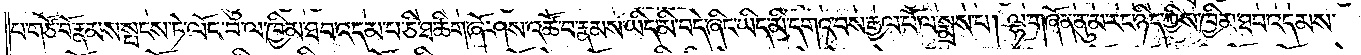པ་གཙོ་བོ་རྣམས་སྤངས་ཏེ་ལོང་བ་ལ་ཁྱིམ་ཐབ་འདམ་པ་ཅི་ཐ་ཚིག་ཞོ་ཤས་འཚོ་བ་རྣམས་ཡིད་མི་བདེ་ཞིང་མི་དགའ་བས་རྒྱལ་པོ་ལ་སྨྲས་པ། ལྷ་གཞོན་ནུ་མ་རང་ཉིད་ཀྱིས་ཁྱིམ་ཐབ་འདམས་
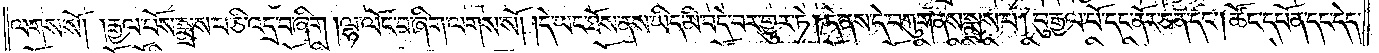ལགས་སོ། །རྒྱལ་པོས་སྨྲས་པ་ཅི་འདྲ་བ་ཞིག །ལྷ་ལོང་བ་ཞིག་ལགས་སོ། །དེ་ཡང་ཐོས་ནས་ཡིད་མི་བདེ་བར་གྱུར་ཏེ། དེ་ནས་དེ་བཀུག་ནས་སྨྲས་པ། བུ་རྒྱལ་པོ་དང་ནོར་ཅན་དང༌། ཚོང་དཔོན་དང་དེད་
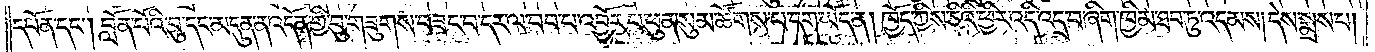དཔོན་དང༌། བློན་པོའི་བུ་དང་མདུན་ན་འདོན་གྱི་བུ་གཟུགས་བཟང་བ་དར་ལ་བབ་པ་འབྱོར་པ་ཕུན་སུམ་ཚོགས་པ་དག་ཡོད་ན། ཁྱོད་ཀྱིས་ཅིའི་ཕྱིར་འདི་འདྲ་བ་ཞིག་ཁྱིམ་ཐབ་ཏུ་འདམས། དེས་སྨྲས་པ།
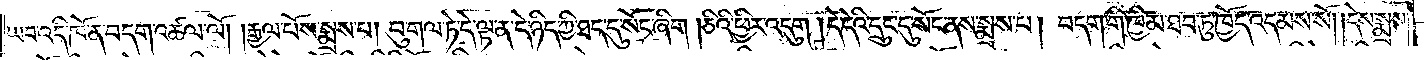ཡབ་འདི་ཁོ་ན་བདག་འཚལ་ལོ། །རྒྱལ་པོས་སྨྲས་པ། བུ་གལ་ཏེ་དེ་ལྟ་ན་དེ་ཉིད་ཀྱི་ཐད་དུ་སོང་ཞིག །ཅིའི་ཕྱིར་འདུག །དེ་དེའི་དྲུང་དུ་སོང་ནས་སྨྲས་པ། བདག་གི་ཁྱིམ་ཐབ་ཏུ་ཁྱོད་འདམས་སོ། །དེས་སྨྲས་
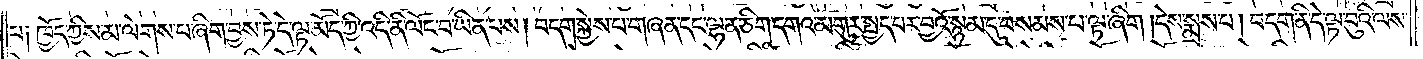པ༑ ཁྱོད་ཀྱིས་མ་ལེགས་པ་ཞིག་བྱས་ཏེ་དེ་ལྟ་མོད་ཀྱི་འདི་ནི་ལོང་བ་ཡིན་པས། བདག་སྐྱེས་པ་གཞན་དང་ལྷན་ཅིག་དགའ་མགུར་སྤྱད་པར་བྱའོ་སྙམ་དུ་བསམས་པ་ལྟ་ཞིག །དེས་སྨྲས་པ། བདག་ནི་དེ་ལྟ་བུའི་ལས་
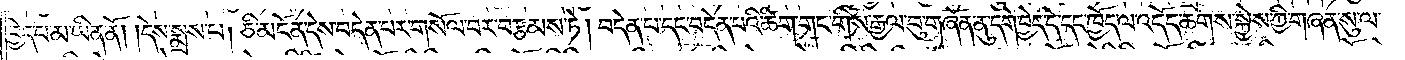བྱེད་པ་མ་ཡིན་ནོ། །དེས་སྨྲས་པ། ཅི་མངོན་དེས་བདེན་པ་གསོལ་བར་བརྩམས་ཏེ། བདེན་པ་དང་བདེན་པའི་ཚིག་གང་གིས་རྒྱལ་བུ་གཞོན་ནུ་དགེ་བྱེད་དེ་དང་ཁྱོད་ལ་འདོད་ཆགས་སྐྱེས་ཀྱི་གཞན་སུ་ལ་
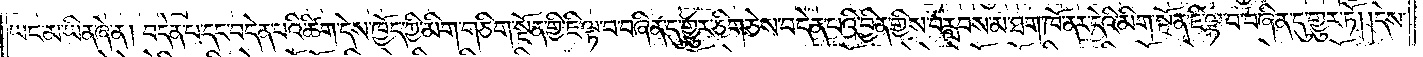ཡང་མ་ཡིན་ཞེ་ན། བདེན་པ་དང་བདེན་པའི་ཚིག་དེས་ཁྱོད་ཀྱི་མིག་གཅིག་སྔོན་གྱི་ཇི་ལྟ་བ་བཞིན་དུ་གྱུར་ཅིག་ཅེས་བདེན་པའི་བྱིན་གྱིས་བརླབས་མ་ཐག་ཁོ་ནར་དེའི་མིག་སྔོན་ཇི་ལྟ་བ་བཞིན་དུ་གྱུར་ཏོ། །དེས་
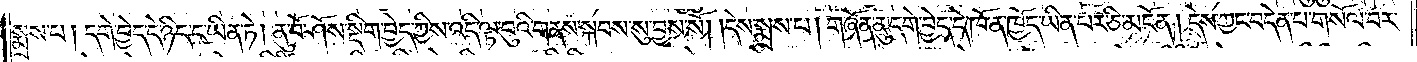སྨྲས་པ། དགེ་བྱེད་དེ་ཉིད་ང་ཡིན་ཏེ། ནུ་བོ་ཤོས་སྡིག་བྱེད་ཀྱིས་འདི་ལྟ་བུའི་གནས་སྐབས་སུ་བྱས་སོ། །དེས་སྨྲས་པ། གཞོན་ནུ་དགེ་བྱེད་དེ་ཁོ་ན་ཁྱོད་ཡིན་པར་ཅི་མངོན། དེས་ཀྱང་བདེན་པ་གསོལ་བར་
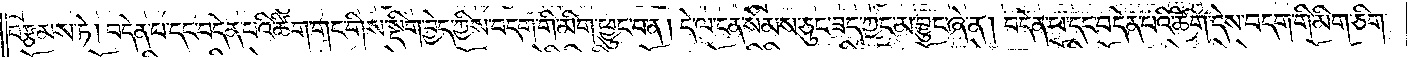བརྩམས་ཏེ། བདེན་པ་དང་བདེན་པའི་ཚིག་གང་གིས་སྡིག་བྱེད་ཀྱིས་བདག་གི་མིག་ཕྱུང་བ་ན། དེ་ལ་ངན་སེམས་ཅུང་ཟད་ཀྱང་མ་བྱུང་ཞེ་ན། བདེན་པ་དང་བདེན་པའི་ཚིག་དེས་བདག་གི་མིག་ཅིག་
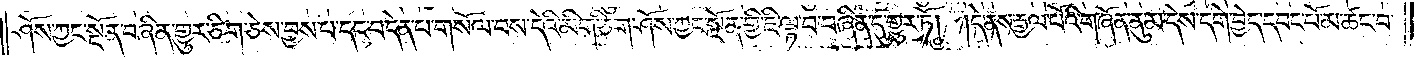ཤོས་ཀྱང་སྔོན་བཞིན་གྱུར་ཅིག་ཅེས་བྱས་པ་དང་བདེན་པ་གསོལ་བས་དེའི་མི་གཅིག་ཤོས་ཀྱང་སྔོན་གྱི་ཇི་ལྟ་བ་བཞིན་དུ་གྱུར་ཏོ། །དེ་ནས་རྒྱལ་པོའི་གཞོན་ནུ་མ་དེས་དགེ་བྱེད་དབང་པོ་མ་ཚང་བ་
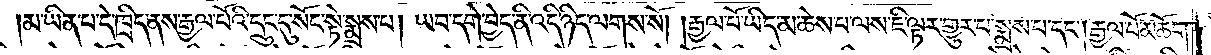མ་ཡིན་པ་དེ་ཁྲིད་ནས་རྒྱལ་པོའི་དྲུང་དུ་སོང་སྟེ་སྨྲས་པ། ཡབ་དགེ་བྱེད་ནི་འདི་ཉིད་ལགས་སོ། །རྒྱལ་པོ་ཡིད་མ་ཆེས་པ་ལས་ཇི་ལྟར་གྱུར་པ་སྨྲས་པ་དང༌། རྒྱལ་པོ་མཆོག་
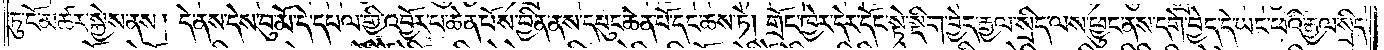ཏུ་ངོ་མཚར་སྐྱེས་ནས། དེ་ནས་དེས་བུ་མོ་དེ་དཔལ་གྱི་འབྱོར་པ་ཆེན་པོས་བྱིན་ནས་དཔུང་ཆེན་པོ་དང་ཆས་ཏེ། གྲོང་ཁྱེར་དེར་དོང་སྟེ་སྡིག་བྱེད་རྒྱལ་སྲིད་ལས་ཕྱུང་ནས་དགེ་བྱེད་དེ་ཡང་ཕའི་རྒྱལ་སྲིད་
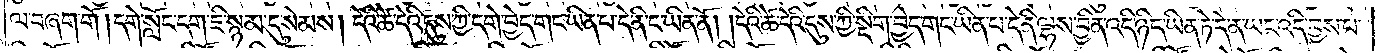ལ་བཞག་གོ །དགེ་སློང་དག་ཇི་སྙམ་དུ་སེམས། དེའི་ཚེ་དེའི་དུས་ཀྱི་དགེ་བྱེད་གང་ཡིན་པ་དེ་ནི་ང་ཡིན་ནོ། །དེའི་ཚེ་དེའི་དུས་ཀྱི་སྡིག་བྱེད་གང་ཡིན་པ་དེ་ནི་ལྷས་བྱིན་འདི་ཉིད་ཡིན་ཏེ་དེ་ན་ཡང་འདི་བྱས་པ་
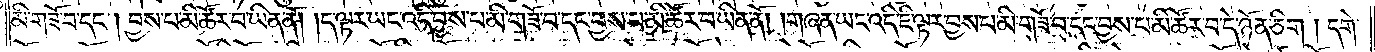མི་གཟོ་བ་དང༌། བྱས་པ་མི་ཚོར་བ་ཡིན་ནོ། །ད་ལྟར་ཡང་འདི་བྱས་པ་མི་གཟོ་བ་དང་བྱས་པ་མི་ཚོར་བ་ཡིན་ནོ། །གཞན་ཡང་འདི་ཇི་ལྟར་བྱས་པ་མི་གཟོ་བ་དང་བྱས་པ་མི་ཚོར་བ་དེ་ཉོན་ཅིག །དགེ་
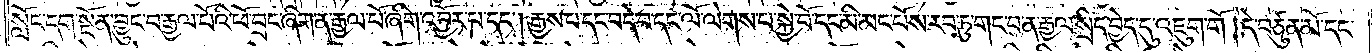སློང་དག་སྔོན་བྱུང་བ་རྒྱལ་པོའི་ཕོ་བྲང་ཞིག་ན་རྒྱལ་པོ་ཞིག་འབྱོར་པ་དང༌། རྒྱས་པ་དང་བདེ་བ་དང་ལོ་ལེགས་པ་སྐྱེ་བོ་དང་མི་མང་པོས་རབ་ཏུ་གང་བ་ན་རྒྱལ་སྲིད་བྱེད་དུ་འཇུག་གོ །དེ་བཙུན་མོ་དང་
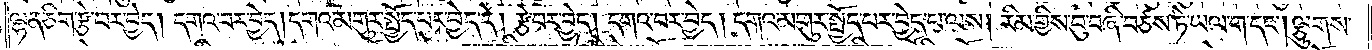ལྷན་ཅིག་རྩེ་བར་བྱེད། དགའ་བར་བྱེད། དགའ་མགུར་སྤྱོད་པར་བྱེད་དེ། རྩེ་བར་བྱེད། དགའ་བར་བྱེད། དགའ་མགུར་སྤྱོད་པར་བྱེད་པ་ལས། རིམ་གྱིས་བུ་བཞི་བཙས་ཏེ་ཡལ་ག་དང༌། ལྕུགས་
